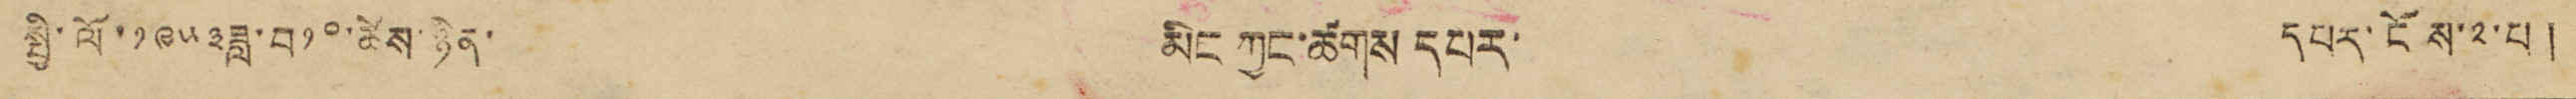སྤྱི་ལོ་༡༩༥༣ཟླ་བ༡༠་ཚེས་ཉིན་ མིང ཀྱང་ཚགས དཔར་ དཔར་ངོས་༢་པ །
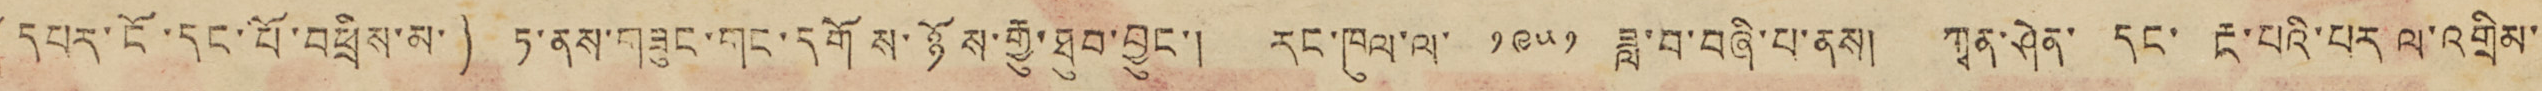(དཔར་ངོ་དང་པོ་བཕྲིས་མ་) ཏ་ནས་གཟུང་གང་དགོས་ཉོས་རྒྱུ་ཐུབ་བྱུང་། རང་ཁུལ་ལ་ ༡༩༥༡ ཟླ་བ་བཞི་པ་ནས། ཀྭན་ཤེན་ དང་ རྔ་པའི་པར ལ་འགྲིམ་
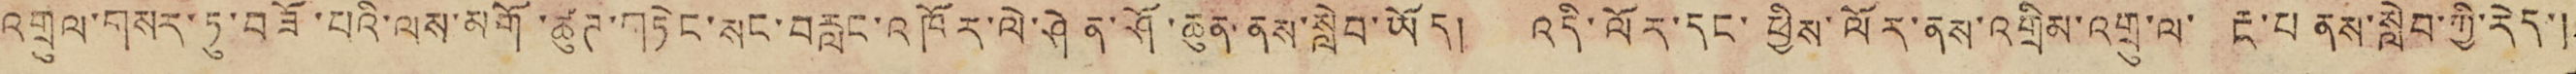འགྲུལ་གསར་ཏུ་བཟོ་པའི་ལས་མགོ་ཚུཊ་གཏེང་སང་བརླང་འཁོར་ལེ་ཤེན་ཤོ་ཆུན་ནས་སླེབ་ཡོད། འདི་ལོར་དང་ཕྱིས་ལོར་ནས་འགྲིམ་འགྲུ་ལ་ རྔ་པ ནས་སླེབ་ཀྱི་རེད་།
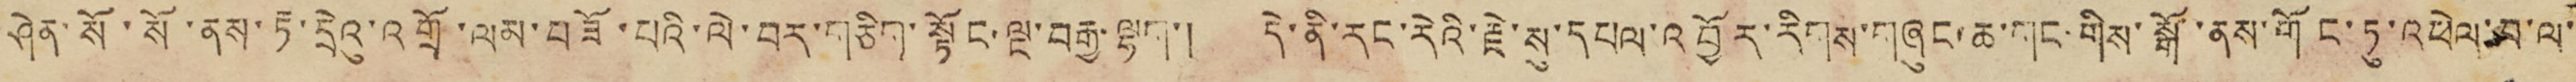ཤེན་སོ་སོ་ནས་རྟ་དྲེའུ་འགྲོ་ལམ་བཟོ་པའི་ལེ་བར་གཅིག་སྟོང་ལྔ་བརྒྱ་ལྷག་། དེ་ནི་རང་རེའི་རྗེ་སུ་དཔལ་འབྱོར་རིགས་གཞུང་ཆ་གང་གིས་སྒོ་ནས་གོང་ཏུ་འཕེལ་བ་ལ་
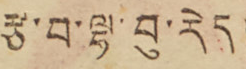རྩ་བ་ལྷ་བུ་རེད།
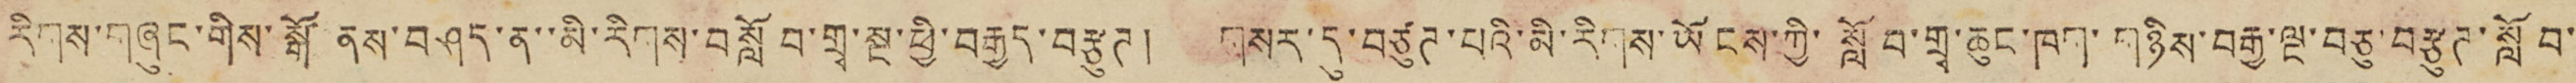རིགས་གཞུང་གིས་སྒོ ནས་བཤད་ན་་མི་རིགས་བསློབ་གྲྭ་སྔ་ཕྱི་བརྒྱད་བརྩུཊ། གསར་དུ་བཙུཊ་པའི་མི་རིགས་ཡོངས་ཀྱི་སློབ་གྲྭ་ཆུང་ཁག་གཉིས་བརྒྱ་ལྔ་བཅུ་བརྩུཊ་སློབ་
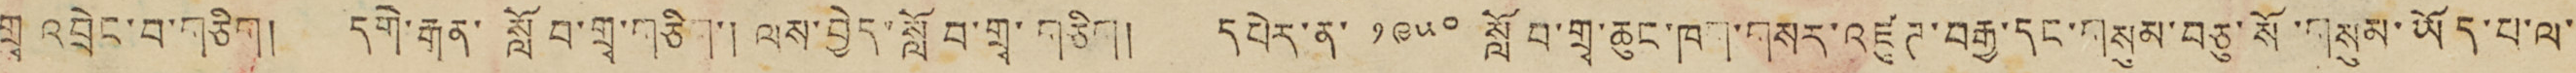གྲྭ འབྲེང་བ་གཅིག། དགེ་རྒན་ སློབ་གྲྭ་གཅིག་། ལས་བྱེད་སློབ་གྲྭ་གཅིག། དཔེར་ན་ ༡༩༥༠ སློབ་གྲྭ་ཆུང་ཁག་གསར་འཛུཊ་བརྒྱ་དང་གསུམ་བཅུ་སོ་གསུམ་ཡོད་པ་ལ་
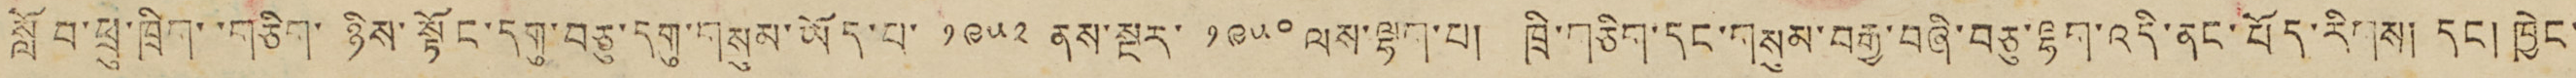སློབ་ཕྲུ་ཁྲིག་་གཅིག་ཉིས་སྟོང་དགུ་བཅུ་དགུ་གསུམ་ཡོད་པ་ ༡༩༥༢ ནས་སྔར་ ༡༩༥༠ ལས་ལྷག་པ། ཁྲི་གཅིག་དང་གསུམ་བརྒྱ་བཞི་བཅུ་ལྷག་འདི་ནང་བོད་རིགས། དང། ཁྱེང་
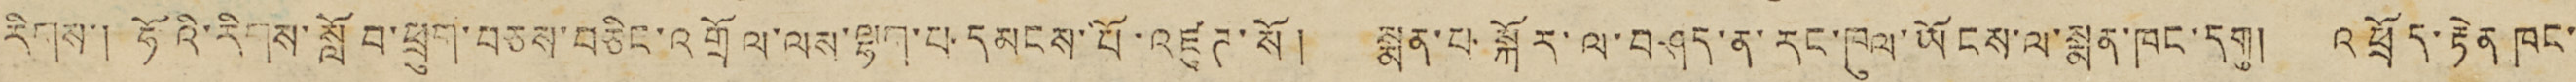རིགས་། ཧོའི་རིགས་སློབ་ཕྲུག་བཅས་བཅིང་འགྲོལ་ལས་ལྷག་པ་དམངས་པོ་འཛུཊ་སོ། སྨན་སྐོར་ལ་བཤད་ན་རང་ཁུལ་ཡོངས་ལ་སྨན་ཁང་དགུ། འཕྲོད་རྟེན ཁང་
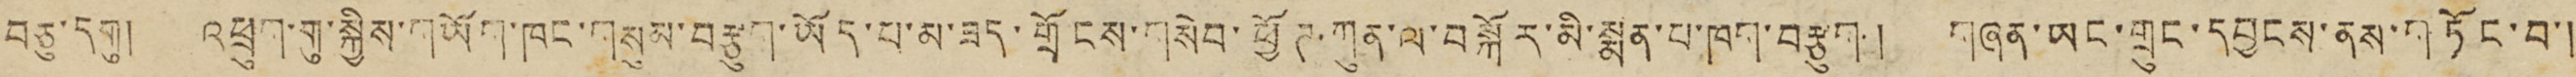བཅུ་དགུ། འཕྲུག་གུ་སྐྱིས་གཡོག་ཁང་གསུམ་བརྩུག་ཡོད་པ་མ་ཟད་གྲོངས་གསེབ་ཕྱོཊ་ཀུན་ལ་བསྐོར་མི་སྨན་པ་ཁག་བརྩུག། གཞན་ཡང་གྲུང་དབྱངས་ནས་གཏོང་བ་།
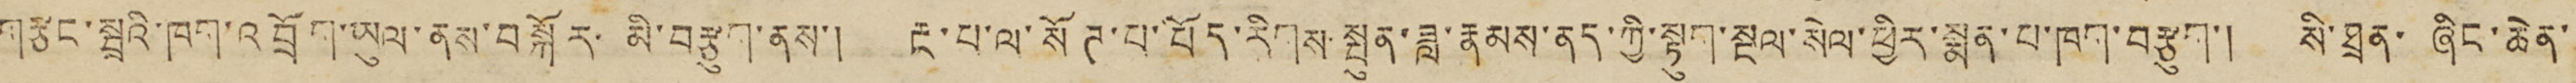གཙང་སྤྲའི་ཁག་འབྲོག་ཡུལ་ནས་བསྐོར་མི་བརྩུག་ནས་། རྔ་པ་ལ་སོཊ་པ་བོད་རིགས་སྤུན་ཟླ་རྣམས་ནད་ཀྱི་སྟུག་སྔལ་སེལ་ཕྱིར་སྨན་པ་ཁག་བརྩུག་། སི་ཐྲན་ཞིང་ཆེན་
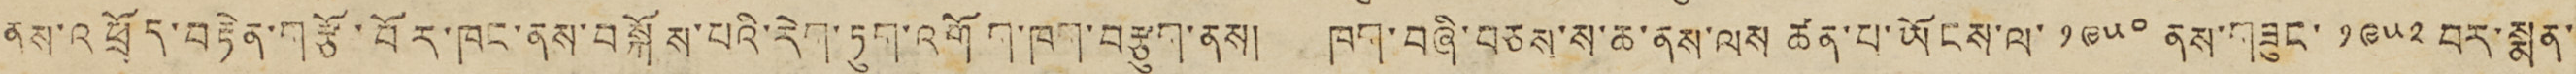ནས་འཕྲོད་བརྟེན་གཙོ་བོར་ཁང་ནས་བསྐོས་པའི་རེག་ཏུག་འགོག་ཁག་བརྩུག་ནས། ཁག་བཞི་བཅས་ས་ཆ་ནས་ལས ཚན་པ་ཡོངས་ལ་ ༡༩༥༠ ནས་གཟུང་ ༡༩༥༢ བར་སྨན་
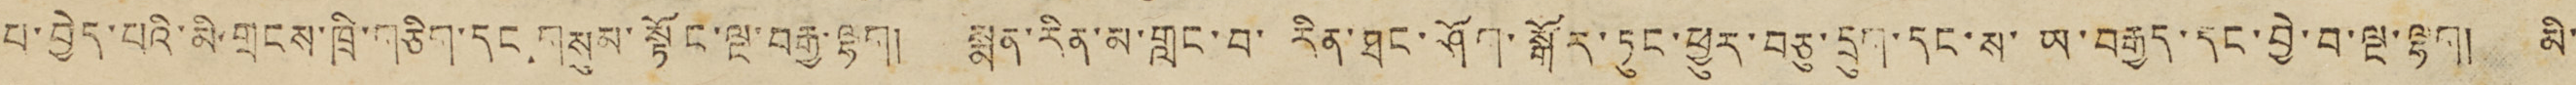པ་བྱེད་པའི་མི་གྲངས་ཁྲི་གཅིག་དང་གསུམ་སྟོང་ལྔ་བརྒྱ་ལྷག། སྨན་རིན་མ་གླང་བ་ རིན་ཐང་ཤོག་སྒོར་ཏུང་ཕྱུར་བཅུ་དྲུག་དང་ས་ཡ་བརྒྱད་དང་བྱེ་བ་ལྔ་ལྷག། མི་
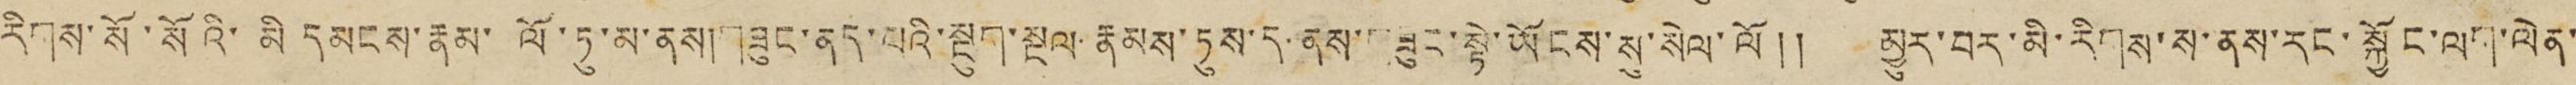རིགས་སོ་སོའི་མི དམངས་རྣམ་ ལོ་ཏུ་མ་ནས།གཟུང་ནད་པའི་སྔུག་སྔལ་རྣམས་ཏུས་ད་ནས་གཟུང་སྟེ་ཡོནསྒ་སུ་སེལ་ལོ༎ མྱུར་བར་མི་རིགས་ས་ནས་རང་སྐྱོང་ལག་ལེན་
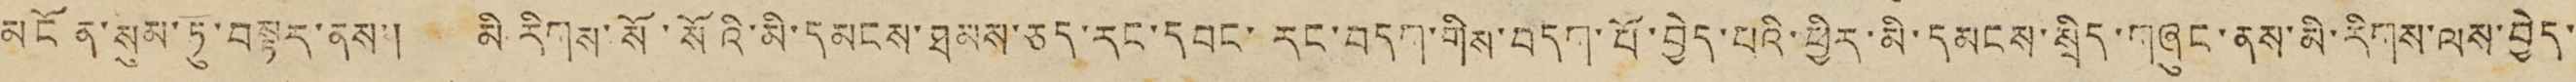མངོན་སུམ་ཏུ་བསྟར་ནས་། མི་རིགས་སོ་སོའི་མི་དམངས་ཐམས་ཅད་དང་དབང་རང་བདག་གིས་བདག་པོ་བྱེད་པའི་ཕྱིར་མི་དམངས་སྲིད་གཞུང་ནས་མི་རིགས་ལས་བྱེད་
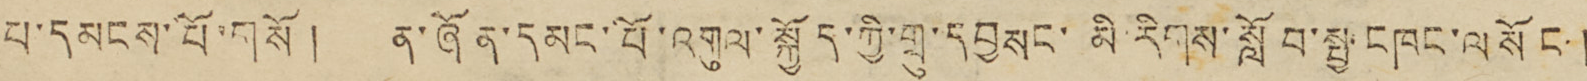པ་དམངས་པོ་གསོ། ན་ཞོན་དམང་པོ་འགུལ་སྐྱོད་ཀྱི་གྲུབ་དབྱསང་མི་རིགས་སློབ་སྦྱངཁང་ལ སོང །
